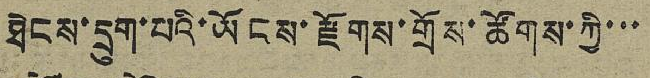ཐེངས་དྲུག་པའི་ཡོངས་རྫོགས་གྲོས་ཚོགས་ཀྱི་་་
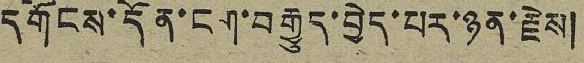དགོངས་དོན་ངག་བརྒྱུད་བྱེད་པར་ཉན་རྗེས།
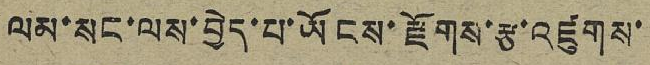ལམ་སང་ལས་བྱེད་པ་ཡོངས་རྫོགས་རྩ་འཛུགས་
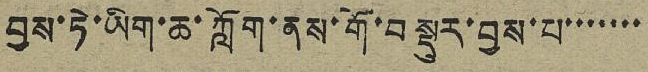བྱས་ཏེ་ཡིག་ཆ་ཀློག་ནས་གོ་བསྡུར་བྱས་པ་་་་་་་
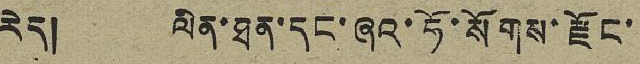རེད། ལིན་ཐན་དང་ཞའ་ཧོ་སོགས་རྫོང་
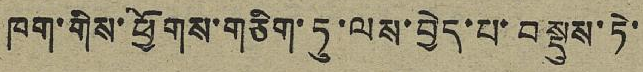ཁག་གིས་ཕྱོགས་གཅིག་ཏུ་ལས་བྱེད་པ་བསྡུས་ཏེ་
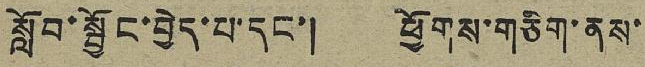སློབ་སྦྱོང་བྱེད་པ་དང་། ཕྱོགས་གཅིག་ནས་
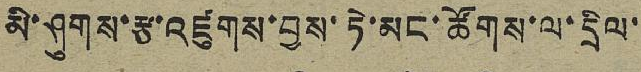མི་ཤུགས་རྩ་འཛུགས་བྱས་ཏེ་མང་ཚོགས་ལ་དྲིལ་
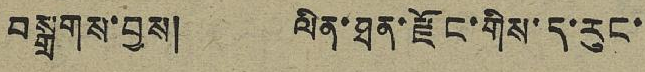བསྒྲགས་བྱས། ལིན་ཐན་རྫོང་གིས་ད་རུང་
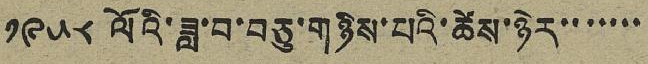༡༩༥༨ ལོའི་ཟླ་བ་བཅུ་གཉིས་པའི་ཚེས་ཉེར་་་་་་་
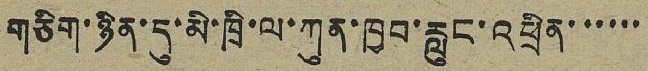གཅིག་ཉིན་དུ་མི་ཁྲི་ལ་ཀུན་ཁྱབ་རླུང་འཕྲིན་་་་་་
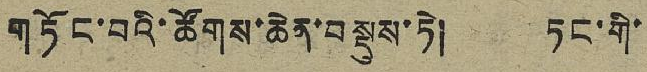གཏོང་བའི་ཚོགས་ཆེན་བསྡུས་ཏེ། ཏང་གི་
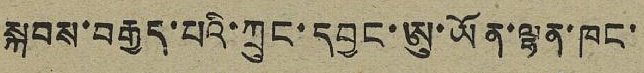སྐབས་བརྒྱད་པའི་ཀྲུང་དབྱང་ཨུ་ཡོན་ལྷན་ཁང་
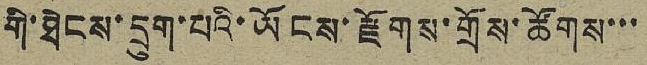གི་ཐེངས་དྲུག་པའི་ཡོངས་རྫོགས་གྲོས་ཚོགས་་་
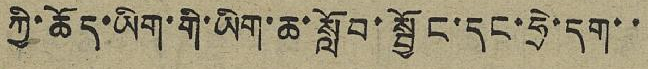ཀྱི་ཆོད་ཡིག་གི་ཡིག་ཆ་སློབ་སྦྱོང་དང་ཧྲེ་དག་་
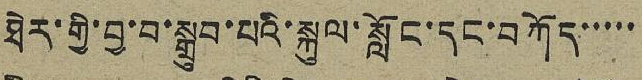ཐེར་གྱི་བྱ་བ་སྒྲུབ་པའི་སྐུལ་སློང་དང་བཀོད་་་་་
